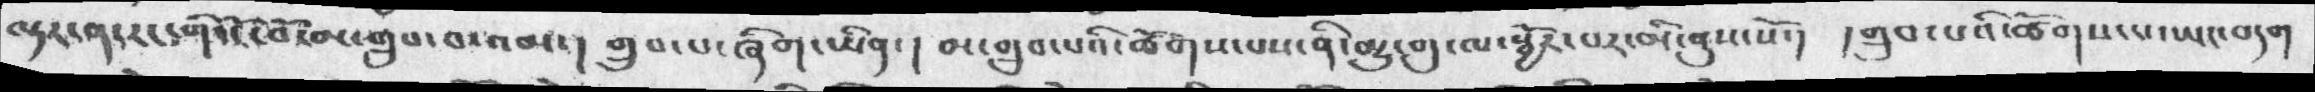ལྟར་ན་རང་གི་ངོ་བོ་མ་གྲུབ་བ་འམ་། གྲུབ་པ་ཞིག་ཡིན་། མ་གྲུབ་པའི་ཚོགས་པས་ནི་མྱུ་གུ་ལ་སྦྱོར་པར་མི་ནུས་སོ་། །གྲུབ་པའི་ཚོགས་པ་ཡང་བདག
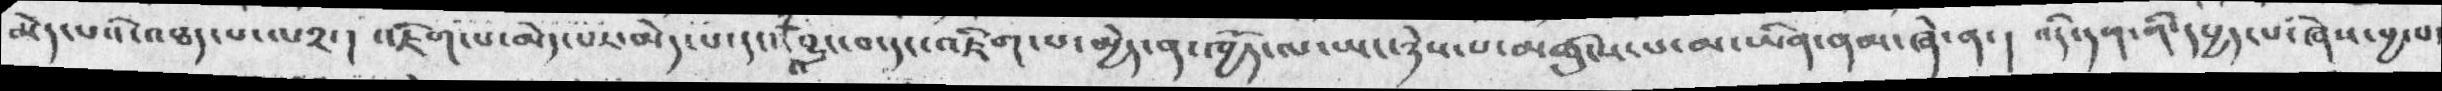མེད་པའི་འཐད་པ་ལ༢་།  འཇིག་པ་མེད་པར་མེད་པ་དང་འབྱུང་བ་དང་འཇིག་པ་མྱེད་ན་ཁྱོད་ལ་སྤང་ཉེས་པ་མཚུངས་པ་མ་ཡིན་ནམ་ཞེ་ན་།  འདི་དག་ནི་དཔྱད་པ་ཞེས་བྱ་བ
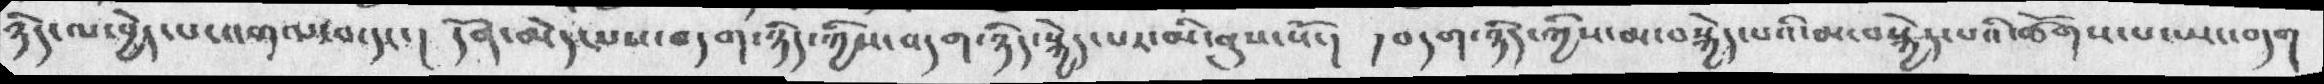ཉིད་ལ་བྱེད་པ་འགལ་བ་དང་། དོན་མེད་པས་བདག་ཉིད་ཀྱིས་བདག་ཉིད་སྐྱེད་པར་མི་ནུས་སོ་། །བདག་ཉིད་ཀྱིས་མ་བསྐྱེད་པའི་ཚོགས་པ་ཡང་བདག
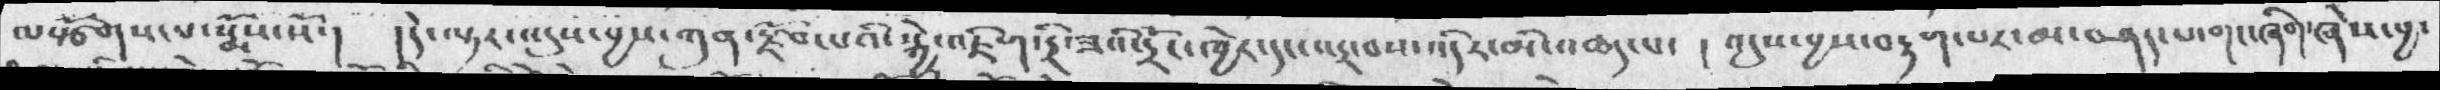ལསྩོགས་པ་སྨོས་སོ་།  །དེ་ལྟར་འདུས་བྱས་ཀུན་སྫོབ་པའི་སྐྱེ་འཇིག་དྲི་ཟའི་དྲོང་ཁྱེར་དང་འདྲ་བས་འདིར་མི་འཆད་པ་   ། འདུས་བྱས་བརྟག་པར་མ་བཤད་པ་གང་ཞིག་ཞེས་བྱ་
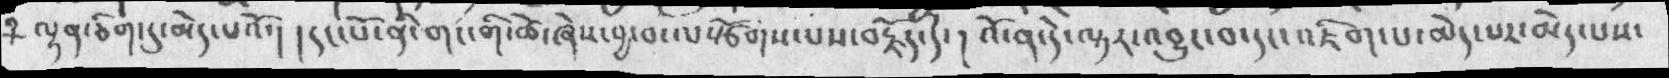ལྷན་ཅིག་དུ་མེད་པའོ་།  ། དང་པོ་ནི་གང་གི་ཚེ་ཞེས་བྱ་བ་ལསྩོགས་པས་བརྗོད་དོ་།  འོ་ན་དེ་ལྟར་འབྱུང་བ་དང་འཇིག་པ་མེད་པར་མེད་པས་
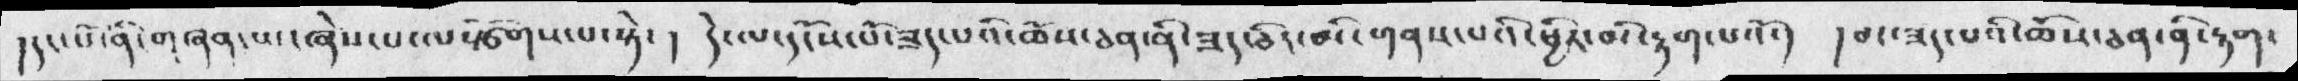།དང་པོ་ནི་གཞན་ཡང་ཞེས་པ་ལསྩོགས་པ་སྟེ་། དེ་ལ་དངོས་པོ་ཟད་པའི་ཆོས་ཅན་ནི་ཟད་ཅིང་མི་གནས་པའི་ཕྱིར་མི་རྟག་པའོ་།  །མ་ཟད་པའི་ཆོས་ཅན་ནི་རྟག་
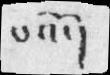པའོ་།
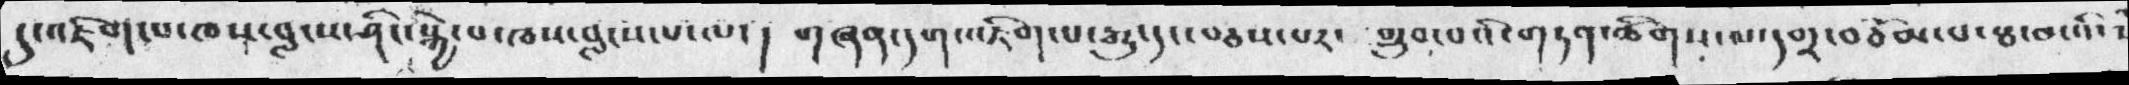དུ་འཇིག་པ་ཁས་བླངས་ཤིང་སྐྱེ་བ་ཁས་བླངས་པ་ལ་་ ། གཞན་དག་འཇིག་པ་རྒྱུ་དང་བཅས་པར་ གྲུབ་པའི་གཏན་ཚིགས་ལ་དགྲ་བཅོམ་པ་ཐ་མའི་
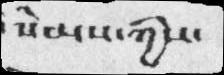སེམས་ཀྱིས་
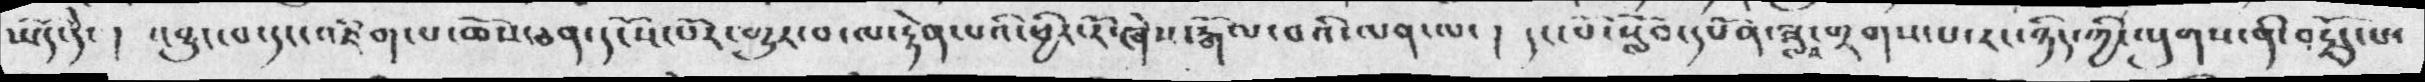ཡོད་དེ་ ། འབྱུང་བ་དང་འཇིག་པ་ཆོས་ཅན་དངོས་པོར་གྱུར་བ་ལ་རྟེན་པའི་ཕྱིར་རོ་ཞེས་རྒོལ་བའི་ལན་ལ་ །  དང་པོ་སློབ་དཔོན་ཟླ་བ་གྲགས་པ་རང་ཉིད་ཀྱི་ལུགས་ནི་བརྗོད་ོཔ་
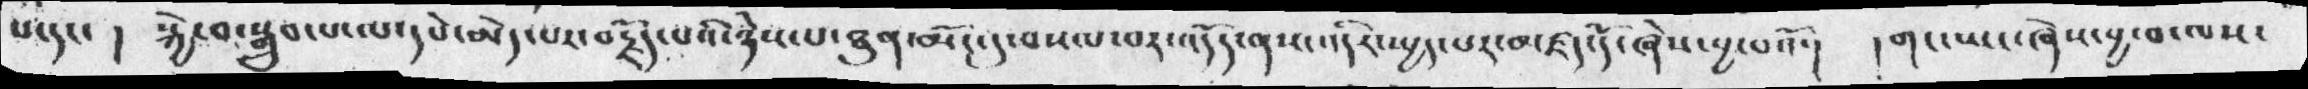པ་དང་། སྐྱེ་བ་སྒྲུབ་པ་ལ་དཔེ་མེད་པར་བརྗོད་པའི་ཉེས་པ་ཐུན་མོང་དུ་བསལ་བར་འདོད་ནས་འདིར་སྤྱད་པར་མཛད་དོ་ཞེས་བྱ་བའོ་། །གང་སྤང་ཞེས་བྱ་བ་ལས་
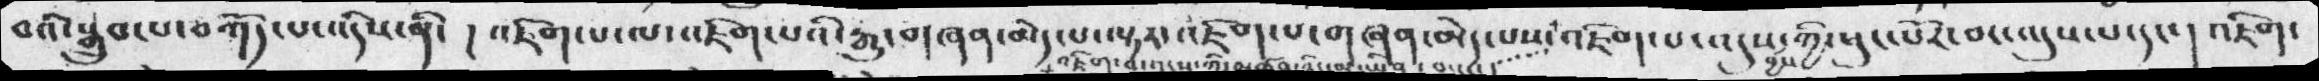བའི་སྒྲུབ་པ་བཀོད་པ་འདིས་ནི་།  འཇིག་པ་ལ་འཇིག་པའི་རྒྱུ་གཞན་མེད་པ་ལྟར་འཇིག་པ་གཞན་མེད་པས་འཇིག་པ་འདུས་བྱས་ཀྱི་ཕུང་པོར་བར་འདུས་པདང་།  འཇིག་
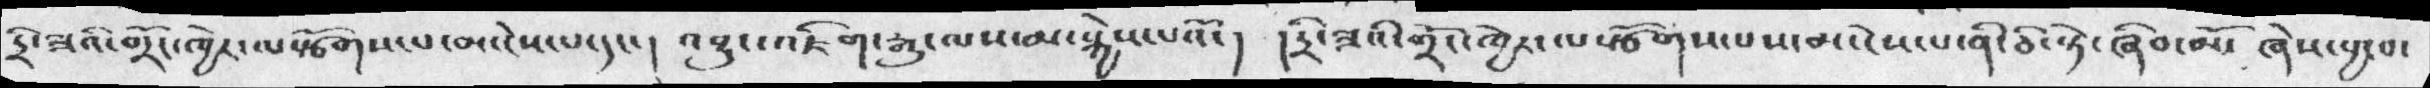དྲི་ཟའི་གྲོང་ཁྱེར་ལསྩོགས་པ་མ་ངེས་པ་དང་།  འབྱུང་འཇིག་རྒྱུ་ལས་མ་སྐྱེས་པའོ་།  །དྲི་ཟའི་གྲོང་ཁྱེར་ལསྩོགས་པས་མ་ངེས་པ་ནི་ཅི་སྟེ་ཞིབ་མོ་ ཞེས་བྱ་བ་
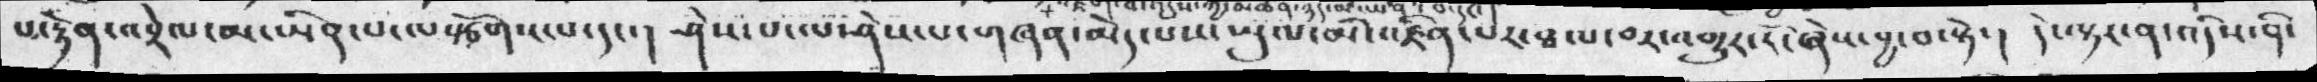པ་རྟེན་འབྲེལ་མ་ཡིན་པ་ལསྩོགས་པ་དང་།   ཤེས་པ་ལ་ཤེས་པ་གཞན་མེད་པས་ཡུལ་མི་འཛིན་པར་ཐལ་བར་འགྱུར་རོ་ཞེས་བྱ་བ་སྟེ་།  དེ་ལྟར་ན་འདིས་ནི་
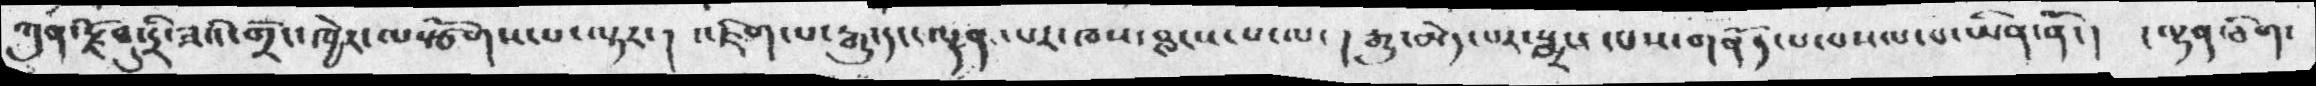ཀུན་རྗོབ་དུ་དྲི་ཟའི་གྲོང་ཁྱེར་ལསྩོགས་པ་ལྟར་།  འཇིག་པ་རྒྱུ་དང་ལྡན་པར་ཁས་བླངས་པ་ལ་ །  རྒྱུ་མེད་པར་སྨྲས་པས་གནོད་པ་བསལ་པ་ཡིན་ནོ་།  ། ལྷན་ཅིག་
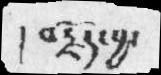།  བརྗོད་བྱ་
